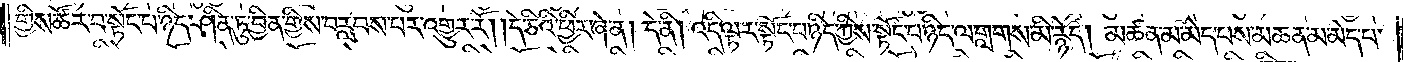གྱིས་ཚོར་བ་སྟོང་པ་ཉིད་ཤིན་ཏུ་བྱིན་གྱིས་བརླབས་པར་འགྱུར་རོ། །དེ་ཅིའི་ཕྱིར་ཞེ་ན། དེ་ནི། འདི་ལྟར་སྟོང་པ་ཉིད་ཀྱིས་སྟོང་པ་ཉིད་ལ་གླགས་མི་རྙེད། མཚན་མ་མེད་པས་མཚན་མ་མེད་པ་
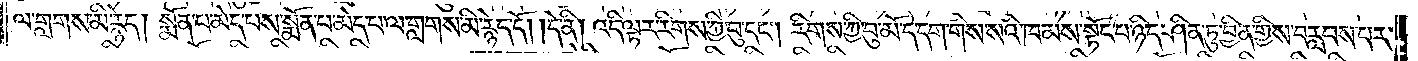ལ་གླགས་མི་རྙེད། སྨོན་པ་མེད་པས་སྨོན་པ་མེད་པ་ལ་གླགས་མི་རྙེད་དོ། །དེ་ནི། འདི་ལྟར་རིགས་ཀྱི་བུ་དང༌། རིགས་ཀྱི་བུ་མོ་དེ་དག་གིས། སའི་ཁམས་སྟོང་པ་ཉིད་ཤིན་ཏུ་བྱིན་གྱིས་བརླབས་པར་
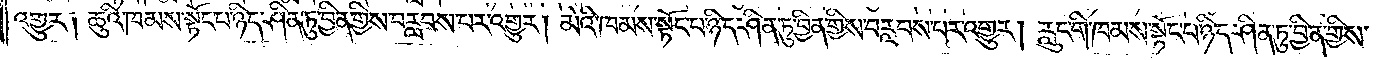འགྱུར། ཆུའི་ཁམས་སྟོང་པ་ཉིད་ཤིན་ཏུ་བྱིན་གྱིས་བརླབས་པར་འགྱུར། མེའི་ཁམས་སྟོང་པ་ཉིད་ཤིན་ཏུ་བྱིན་གྱིས་བརླབས་པར་འགྱུར། རླུང་གི་ཁམས་སྟོང་པ་ཉིད་ཤིན་ཏུ་བྱིན་གྱིས་
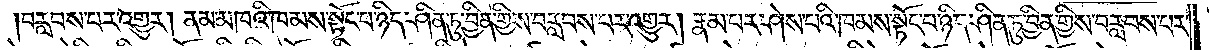བརླབས་པར་འགྱུར། ནམ་མཁའི་ཁམས་སྟོང་པ་ཉིད་ཤིན་ཏུ་བྱིན་གྱིས་བརླབས་པར་འགྱུར། རྣམ་པར་ཤེས་པའི་ཁམས་སྟོང་པ་ཉིད་ཤིན་ཏུ་བྱིན་གྱིས་བརླབས་པར་
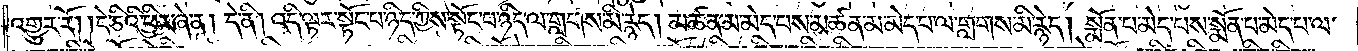འགྱུར་རོ། །དེ་ཅིའི་ཕྱིར་ཞེ་ན། དེ་ནི། འདི་ལྟར་སྟོང་པ་ཉིད་ཀྱིས་སྟོང་པ་ཉིད་ལ་གླགས་མི་རྙེད། མཚན་མ་མེད་པས་མཚན་མ་མེད་པ་ལ་གླགས་མི་རྙེད། སྨོན་པ་མེད་པས་སྨོན་པ་མེད་པ་ལ་
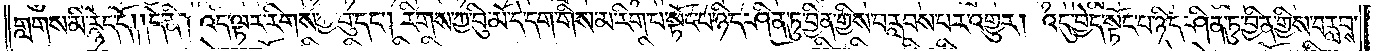གླགས་མི་རྙེད་དོ། །དེ་ནི། འདི་ལྟར་རིགས་ཀྱི་བུ་དང༌། རིགས་ཀྱི་བུ་མོ་དེ་དག་གིས་མ་རིག་པ་སྟོང་པ་ཉིད་ཤིན་ཏུ་བྱིན་གྱིས་བརླབས་པར་འགྱུར། འདུ་བྱེད་སྟོང་པ་ཉིད་ཤིན་ཏུ་བྱིན་གྱིས་བརླབས་
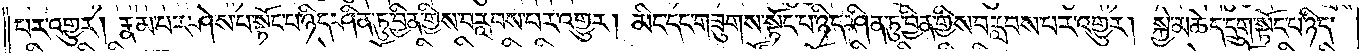པར་འགྱུར། རྣམ་པར་ཤེས་པ་སྟོང་པ་ཉིད་ཤིན་ཏུ་བྱིན་གྱིས་བརླབས་པར་འགྱུར། མིང་དང་གཟུགས་སྟོང་པ་ཉིད་ཤིན་ཏུ་བྱིན་གྱིས་བརླབས་པར་འགྱུར། སྐྱེ་མཆེད་དྲུག་སྟོང་པ་ཉིད་
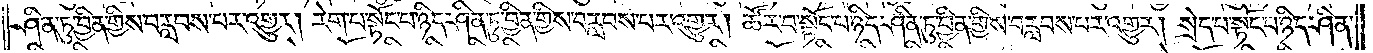ཤིན་ཏུ་བྱིན་གྱིས་བརླབས་པར་འགྱུར། རེག་པ་སྟོང་པ་ཉིད་ཤིན་ཏུ་བྱིན་གྱིས་བརླབས་པར་འགྱུར། ཚོར་བ་སྟོང་པ་ཉིད་ཤིན་ཏུ་བྱིན་གྱིས་བརླབས་པར་འགྱུར། སྲེད་པ་སྟོང་པ་ཉིད་ཤིན་
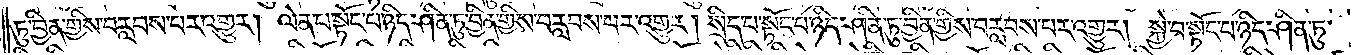ཏུ་བྱིན་གྱིས་བརླབས་པར་འགྱུར། ལེན་པ་སྟོང་པ་ཉིད་ཤིན་ཏུ་བྱིན་གྱིས་བརླབས་པར་འགྱུར། སྲིད་པ་སྟོང་པ་ཉིད་ཤིན་ཏུ་བྱིན་གྱིས་བརླབས་པར་འགྱུར། སྐྱེ་བ་སྟོང་པ་ཉིད་ཤིན་ཏུ་
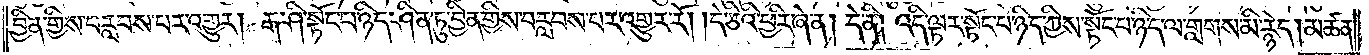བྱིན་གྱིས་བརླབས་པར་འགྱུར། རྒ་ཤི་སྟོང་པ་ཉིད་ཤིན་ཏུ་བྱིན་གྱིས་བརླབས་པར་འགྱུར་རོ། །དེ་ཅིའི་ཕྱིར་ཞེ་ན། དེ་ནི། འདི་ལྟར་སྟོང་པ་ཉིད་ཀྱིས་སྟོང་པ་ཉིད་ལ་གླགས་མི་རྙེད། མཚན་
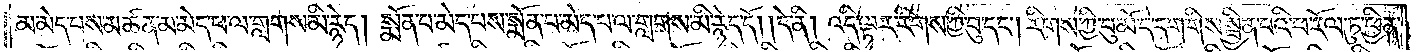མ་མེད་པས་མཚན་མ་མེད་པ་ལ་གླགས་མི་རྙེད། སྨོན་པ་མེད་པས་སྨོན་པ་མེད་པ་ལ་གླགས་མི་རྙེད་དོ། །དེ་ནི་འདི་ལྟར་རིགས་ཀྱི་བུ་དང༌། རིགས་ཀྱི་བུ་མོ་དེ་དག་གིས་སྦྱིན་པའི་ཕ་རོལ་ཏུ་ཕྱིན་
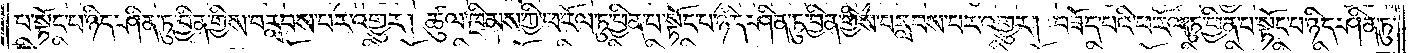པ་སྟོང་པ་ཉིད་ཤིན་ཏུ་བྱིན་གྱིས་བརླབས་པར་འགྱུར། ཚུལ་ཁྲིམས་ཀྱི་ཕ་རོལ་ཏུ་ཕྱིན་པ་སྟོང་པ་ཉིད་ཤིན་ཏུ་བྱིན་གྱིས་བརླབས་པར་འགྱུར། བཟོད་པའི་ཕ་རོལ་ཏུ་ཕྱིན་པ་སྟོང་པ་ཉིད་ཤིན་ཏུ་
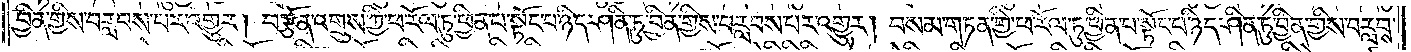བྱིན་གྱིས་བརླབས་པར་འགྱུར། བརྩོན་འགྲུས་ཀྱི་ཕ་རོལ་ཏུ་ཕྱིན་པ་སྟོང་པ་ཉིད་ཤིན་ཏུ་བྱིན་གྱིས་བརླབས་པར་འགྱུར། བསམ་གཏན་གྱི་ཕ་རོལ་ཏུ་ཕྱིན་པ་སྟོང་པ་ཉིད་ཤིན་ཏུ་བྱིན་གྱིས་བརླབས་
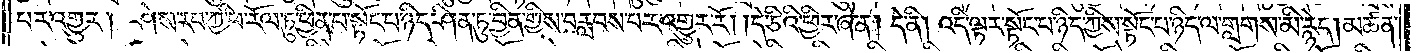པར་འགྱུར། ཤེས་རབ་ཀྱི་ཕ་རོལ་ཏུ་ཕྱིན་པ་སྟོང་པ་ཉིད་ཤིན་ཏུ་བྱིན་གྱིས་བརླབས་པར་འགྱུར་རོ། །དེ་ཅིའི་ཕྱིར་ཞེ་ན། དེ་ནི། འདི་ལྟར་སྟོང་པ་ཉིད་ཀྱིས་སྟོང་པ་ཉིད་ལ་གླགས་མི་རྙེད། མཚན་
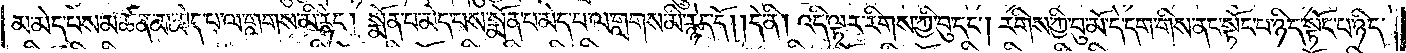མ་མེད་པས་མཚན་མ་མེད་པ་ལ་གླགས་མི་རྙེད། སྨོན་པ་མེད་པས་སྨོན་པ་མེད་པ་ལ་གླགས་མི་རྙེད་དོ། །དེ་ནི། འདི་ལྟར་རིགས་ཀྱི་བུ་དང༌། རིགས་ཀྱི་བུ་མོ་དེ་དག་གིས་ནང་སྟོང་པ་ཉིད་སྟོང་པ་ཉིད་
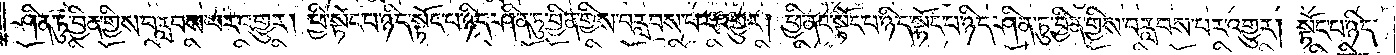ཤིན་ཏུ་བྱིན་གྱིས་བརླབས་པར་འགྱུར། ཕྱི་སྟོང་པ་ཉིད་སྟོང་པ་ཉིད་ཤིན་ཏུ་བྱིན་གྱིས་བརླབས་པར་འགྱུར། ཕྱི་ནང་སྟོང་པ་ཉིད་སྟོང་པ་ཉིད་ཤིན་ཏུ་བྱིན་གྱིས་བརླབས་པར་འགྱུར། སྟོང་པ་ཉིད་
